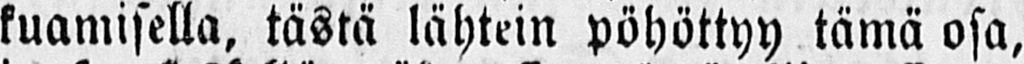kuamisella, tästä lähtein pöhöttyy tämä osa,
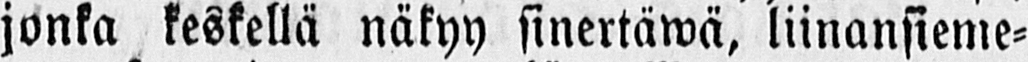jonka keskellä näkyy sinertäwä, liinansieme-
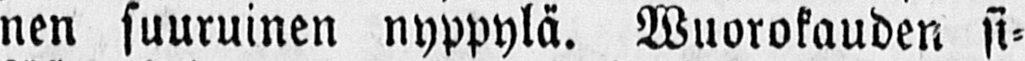nen suuruinen nyppylä. Wuorokauden si-
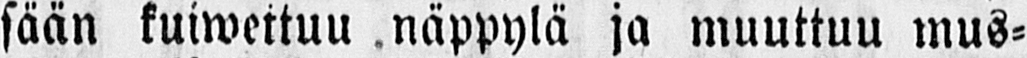sään kuiwettuu näppylä ja muuttuu mus-
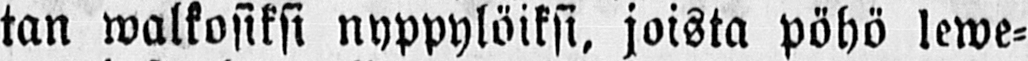tan walkosiksi nyppylöiksi, joista pöhö lewe-
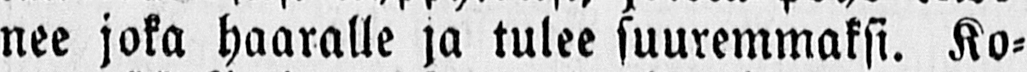nee joka haaralle ja tulee suuremmaksi. Ko-
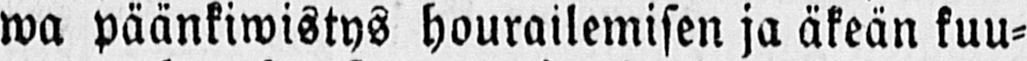wa päänkiwistys hourailemisen ja äkeän kuu-
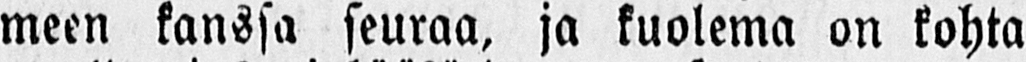meen kanssa seuraa, ja kuolema on kohta
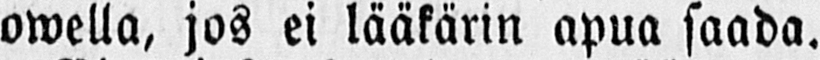owella, jos ei lääkärin apua saada.
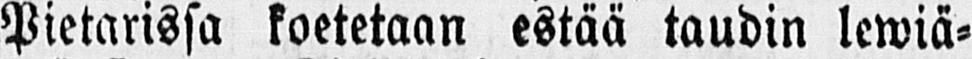Pietarissa koetetaan estää taudin lewiä-
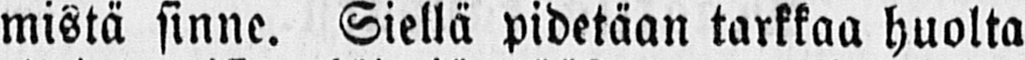mistä sinne. Siellä pidetään tarkkaa huolta
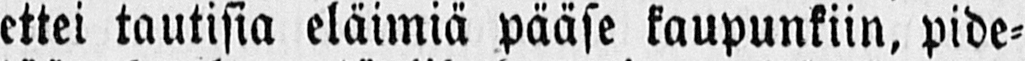ettei tautisia eläimiä pääse kaupunkiin, pide-
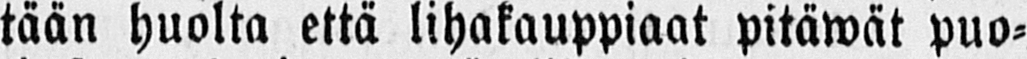tään huolta että lihakauppiaat pitäwät puo-
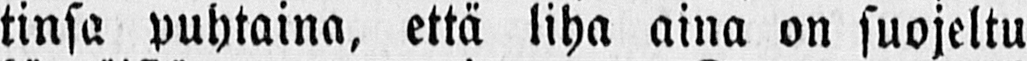tinsa puhtaina, että liha aina on suojeltu
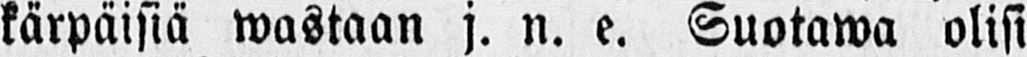kärpäisiä wastaan j. n. e. Suotawa olisi
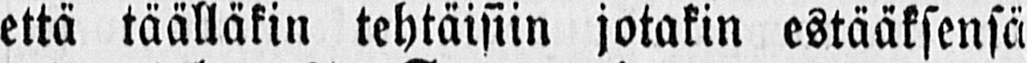että täälläkin tehtäisiin jotakin estääksensä
